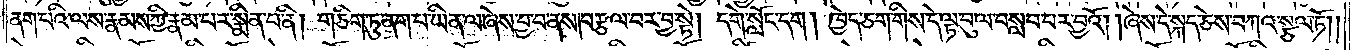ནག་པའི་ལས་རྣམས་ཀྱི་རྣམ་པར་སྨིན་པ་ནི། གཅིག་ཏུ་ནག་པ་ཡིན་ལ་ཞེས་བྱ་བ་ནས། བརྩལ་བར་བྱ་སྟེ། དགེ་སློང་དག། ཁྱེད་ཅག་གིས་དེ་ལྟ་བུ་ལ་བསླབ་པར་བྱའོ། །ཞེས་དེ་སྐད་ཅེས་བཀའ་སྩལ་ཏོ། །
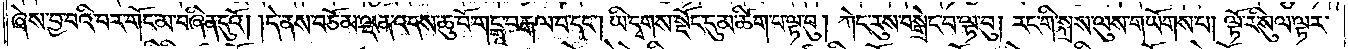ཞེས་བྱ་བའི་བར་གོང་མ་བཞིན་དུའོ། །དེ་ནས་བཅོམ་ལྡན་འདས་ཆུ་བོ་གངྒཱ་བརྒལ་པ་དང༌། ཡི་དྭགས་སྡོད་དུ་མ་ཚིག་པ་ལྟ་བུ། ཀེང་རུས་བསྒྲེང་བ་ལྟ་བུ། རང་གི་སྐྲས་ལུས་གཡོགས་པ། ལྟོ་རི་སུལ་ལྟར་
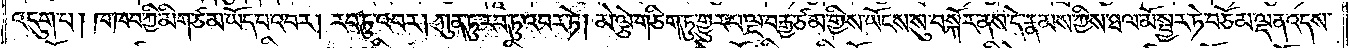འདུག་པ། ཁ་ཁབ་ཀྱི་མིག་ཙམ་ཡོད་པ་འབར། རབ་ཏུ་འབར། ཀུན་ཏུ་རབ་ཏུ་འབར་ཏེ། མེ་ལྕེ་གཅིག་ཏུ་གྱུར་པ་ལྔ་བརྒྱ་ཙམ་གྱིས་ཡོངས་སུ་བསྐོར་ནས་དེ་རྣམས་ཀྱིས་ཐལ་མོ་སྦྱར་ཏེ་བཅོམ་ལྡན་འདས་
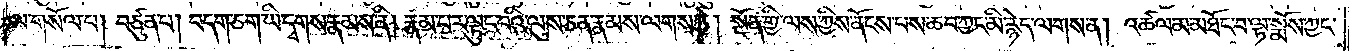ལ་གསོལ་པ། བཙུན་པ། བདག་ཅག་ཡི་དྭགས་རྣམས་ནི། རྣམ་པར་ལྟུང་བའི་ལུས་ཅན་རྣམས་ལགས་ཏེ། སྔོན་གྱི་ལས་ཀྱིས་ནོངས་པས་ཆབ་ཀྱང་མི་རྙེད་ལགས་ན། འཚལ་མ་མཐོང་བ་ལྟ་སྨོས་ཀྱང་
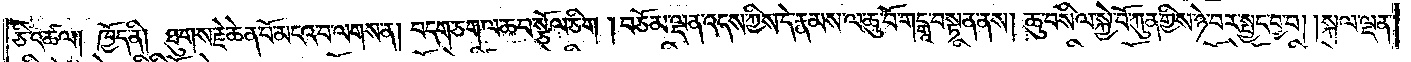ཅི་འཚལ། ཁྱོད་ནི། ཐུགས་རྗེ་ཆེན་པོ་མངའ་བ་ལགས་ན། བདག་ཅག་ལ་ཆབ་སྩོལ་ཅིག །བཅོམ་ལྡན་འདས་ཀྱིས་དེ་རྣམས་ལ་ཆུ་བོ་གངྒཱ་བསྟན་ནས། ཆུ་བསིལ་སྐྱེ་བོ་ཀུན་གྱིས་ཉེ་བར་སྤྱད་བྱ་བ། །སྐལ་ལྡན་
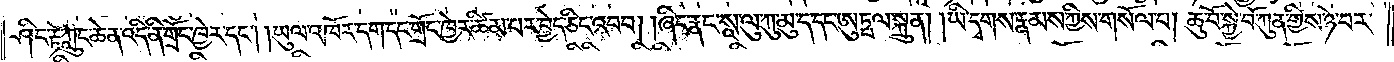ཤིང་རྟ་ཀླུང་ཆེན་འདི་ནི་གྲོང་ཁྱེར་དང༌། །ཡུལ་འཁོར་དག་དང་གྲོང་ཁྱེར་ཚིམ་པར་བྱེད་ཅིང་འབབ། །ཞིང་རྣང་སཱ་ལུ་ཀུ་མུ་ད་དང༌། ཨུཏྤལ་སྐྲུན། །ཡི་དྭགས་རྣམས་ཀྱིས་གསོལ་པ། ཆུ་བོ་སྐྱེ་བོ་ཀུན་གྱིས་ཉེ་བར་
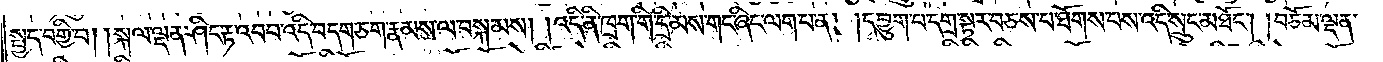སྤྱད་བགྱི་བ། །སྐལ་ལྡན་ཤིང་རྟ་འབབ་འདི་བདག་ཅག་རྣམས་ལ་བསྐམས། །འདི་ནི་ཁྲག་གི་དྲི་མས་གང་ཞིང་ལག་པ་ན། །དབྱུག་པ་དགྲ་སྟར་བཅས་པ་ཐོགས་པས་འདི་སྲུང་མཐོང༌། །བཅོམ་ལྡན་
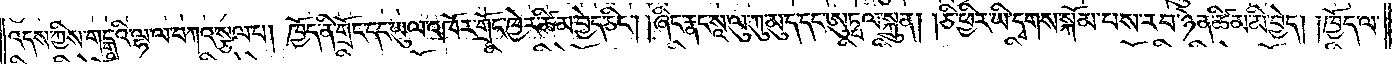འདས་ཀྱིས་གངྒཱའི་ལྷ་ལ་བཀའ་སྩལ་པ། ཁྱོད་ནི་གྲོང་དང་ཡུལ་འཁོར་གྲོང་ཁྱེར་ཚིམ་བྱེད་ཅིང༌། །ཞིང་རྣང་སཱ་ལུ་ཀུ་མུ་ད་དང་ཨུཏྤལ་སྐྲུན། །ཅི་ཕྱིར་ཡི་དྭགས་སྐོམ་པས་རབ་ཉེན་ཚིམ་མི་བྱེད། །ཁྱོད་ལ་
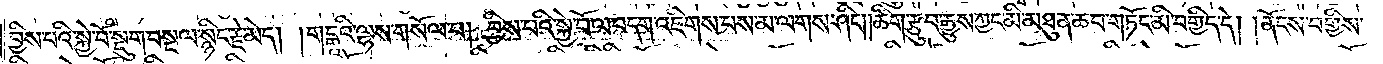བྱིས་པའི་སྐྱེ་བོ་སྡུག་བསྔལ་སྙིང་རྗེ་མེད། །གངྒཱའི་ལྷས་གསོལ་པ། བྱིས་པའི་སྐྱེ་བོ་ལ་བདག་འཇིགས་པས་མ་ལགས་ཤིང༌། །ཚིག་རྩུབ་རྒྱུས་ཀྱང་མི་མཐུན་ཆབ་གཏོང་མི་བགྱིད་དེ། །ནོངས་བགྱིས་
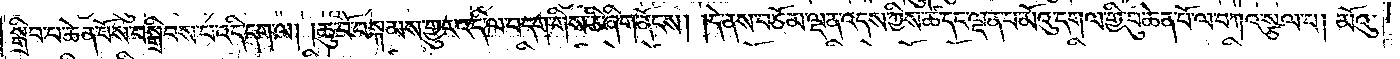སྒྲིབ་པ་ཆེན་པོས་བསྒྲིབས་པ་འདི་དག་ལ། །ཆུ་བོ་བསྐམས་གྱུར་འདི་ལ་བདག་གིས་ཅི་ཞིག་ནོངས། །དེ་ནས་བཅོམ་ལྡན་འདས་ཀྱིས་ཚེ་དང་ལྡན་པ་མོའུ་དགལ་གྱི་བུ་ཆེན་པོ་ལ་བཀའ་སྩལ་པ། མོའུ་
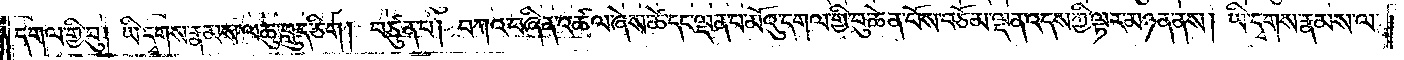དགལ་གྱི་བུ། ཡི་དྭགས་རྣམས་ལ་ཆུ་བླུད་ཅིག །བཙུན་པ། བཀའ་བཞིན་འཚལ་ཞེས་ཚེ་དང་ལྡན་པ་མོའུ་དགལ་གྱི་བུ་ཆེན་པོས་བཅོམ་ལྡན་འདས་ཀྱི་ལྟར་མཉན་ནས། ཡི་དྭགས་རྣམས་ལ་
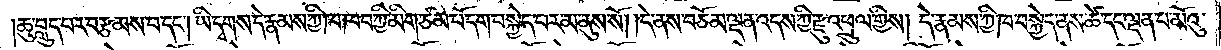།ཆུ་བླུད་པར་བརྩམས་པ་དང༌། ཡི་དྭགས་དེ་རྣམས་ཀྱི་ཁ་ཁབ་ཀྱི་མིག་ཙམ་པོ་དག་བསྐྱེད་པར་མ་ནུས་སོ། །དེ་ནས་བཅོམ་ལྡན་འདས་ཀྱི་རྫུ་འཕྲུལ་གྱིས། དེ་རྣམས་ཀྱི་ཁ་བསྐྱེད་ནས་ཚེ་དང་ལྡན་པ་མོའུ་
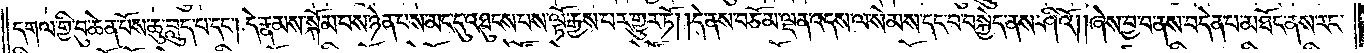དགལ་གྱི་བུ་ཆེན་པོས་ཆུ་བླུད་པ་དང༌། དེ་རྣམས་སྐོམ་པས་ཉེན་པས་མང་དུ་འཐུང་པས་ལྟོ་རྒྱས་པར་གྱུར་ཏོ། །དེ་ནས་བཅོམ་ལྡན་འདས་ལ་སེམས་དང་བ་བསྐྱེད་ནས་ཤིའོ། །ཞེས་བྱ་བ་ནས་བདེན་པ་མཐོང་ནས་རང་
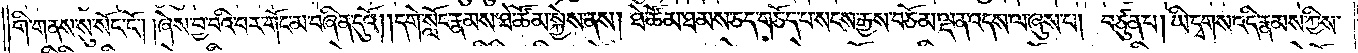གི་གནས་སུ་སོང་ངོ༌། །ཞེས་བྱ་བའི་བར་གོང་མ་བཞིན་དུའོ། །དགེ་སློང་རྣམས་ཐེ་ཚོམ་སྐྱེས་ནས། ཐེ་ཚོམ་ཐམས་ཅད་གཅོད་པ་སངས་རྒྱས་བཅོམ་ལྡན་འདས་ལ་ཞུས་པ། བཙུན་པ། ཡི་དྭགས་འདི་རྣམས་ཀྱིས་
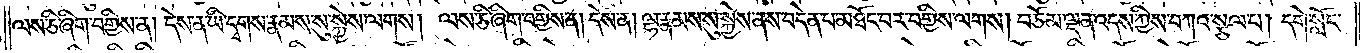ལས་ཅི་ཞིག་བགྱིས་ན། དེས་ན་ཡི་དྭགས་རྣམས་སུ་སྐྱེས་ལགས། ལས་ཅི་ཞིག་བགྱིས་ན། དེས་ན། ལྷ་རྣམས་སུ་སྐྱེས་ནས་བདེན་པ་མཐོང་བར་བགྱིས་ལགས་།བཅོམ་ལྡན་འདས་ཀྱིས་བཀའ་སྩལ་པ། དགེ་སློང་
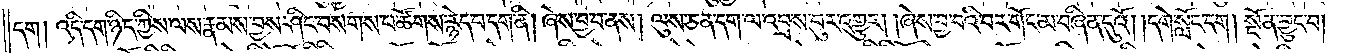དག། འདི་དག་ཉིད་ཀྱིས་ལས་རྣམས་བྱས་ཤིང་བསགས་པ་ཚོགས་རྙེད་པ་དག་ནི། ཞེས་བྱ་བ་ནས། ལུས་ཅན་དག་ལ་འབྲས་བུ་འགྱུར། །ཞེས་བྱ་བའི་བར་གོང་མ་བཞིན་དུའོ། །དགེ་སློང་དག །སྔོན་བྱུང་བ།
